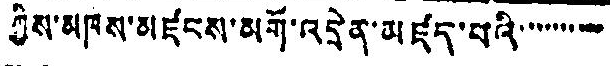ཀྱིས་མཁས་མཛངས་མགོ་འདྲེན་མཛད་པའི་་་་་་་་་་་
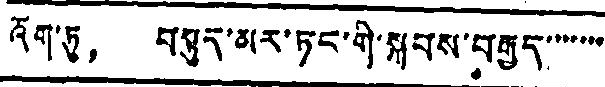འོག་ཏུ， བསྟུད་མར་ཏང་གི་སྐབས་བརྒྱད་་་་་་་
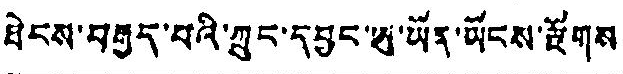ཐེངས་བརྒྱད་པའི་ཀྲུང་དབྱང་ཨུ་ཡོན་ཡོངས་རྫོགས་
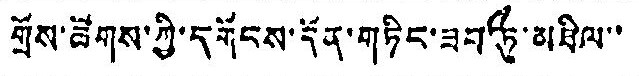གྲོས་ཚོགས་ཀྱི་དགོངས་དོན་གཏིང་ཟབ་ཏུ་མཐིལ་་
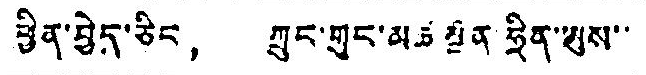ཕྱིན་བྱེད་ཅིང， ཀྲུང་གུང་མཚ སྔན ཧྲིན་ཨུས་་
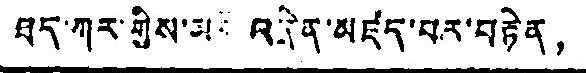ཐད་ཀར་གྱིས་མ་ འདྲེན་མཛད་པར་བརྟེན，
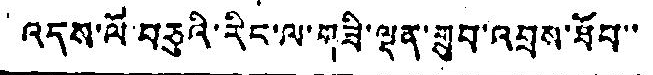འདས་ལོ་བཅུའི་རིང་ལ་གཟི་ལྡན་གྲུབ་འབྲས་ཐོབ་་་
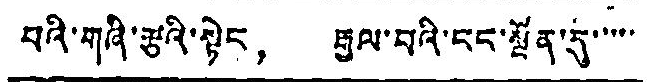པའི་གཞི་རྩའི་སྟེང， རྒྱལ་བའི་ངང་སྔོན་དུ་་་་་་
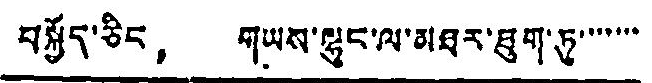བསྐྱོད་ཅིང， གཡས་ལྷུང་ལ་མཐར་ཐུག་ཏུ་་་་་་་
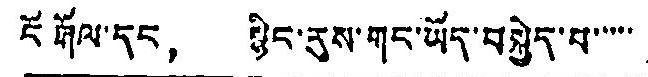ངོ རྒོལ་དང， ཉྙིང་རུས་གང་ཡོད་བསྐྱེད་པ་་་་་
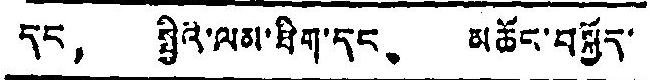དང， སྤྱིའི་ལམ་ཐིག་དང、 མཆོང་བསྐྱོད་
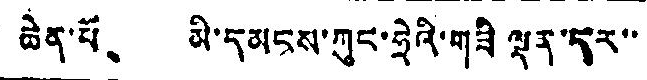ཆེན་པོ、 མི་དམངས་ཀུང་ཧྲེའི་གཟི ལྡན་དར་་
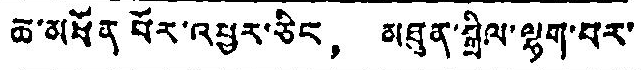ཆ་མཐོན པོར་འཕྱར་ཅིང， མཐུན་སྒྲིལ་ལྷག་པར་
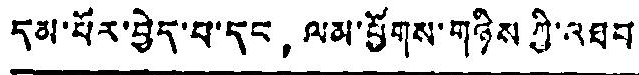དམ་པོར་བྱེད་པ་དང， ལམ་ཕྱོགས་གཉིས ཀྱི་འཐབ
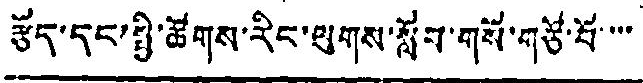རྩོད་དང་སྤྱི་ཚོགས་རིང་ལུགས་སློབ་གསོ་གཙོ་བོ་་་་་
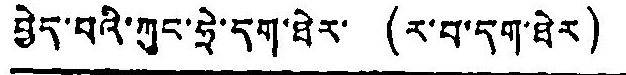བྱེད་པའི་ཀུང་ཧྲེ་དག་ཐེར་ (ར་བ་དག་ཐེར)
